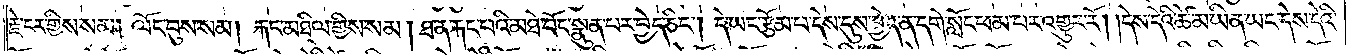རྗེ་ངར་གྱིས་སམ། ལོང་བུས་སམ། རྐང་མཐིལ་གྱིས་སམ། ཐ་ན་རྐང་པའི་མཐེ་བོང་སྣུན་པར་བྱེད་ཅིང༌། དེ་ཡང་རྩོམ་པ་དེས་དུས་བྱེད་ན་དགེ་སློང་ཕམ་པར་འགྱུར་རོ། །དེས་དེའི་ཚེ་མ་ཡིན་ཡང་དེས་དེའི་
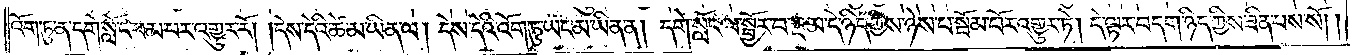འོག་ཏུ་ན་དགེ་སློང་ཕམ་པར་འགྱུར་རོ། །དེས་དེའི་ཚེ་མ་ཡིན་ལ། དེས་དེའི་འོག་ཏུ་ཡང་མ་ཡིན་ན། དགེ་སློང་ལ་སྦྱོར་བ་སྔ་མ་དེ་ཉིད་ཀྱིས་ཉེས་པ་སྦོམ་པོར་འགྱུར་ཏེ། དེ་ལྟར་བདག་ཉིད་ཀྱིས་ཟིན་པས་སོ། །
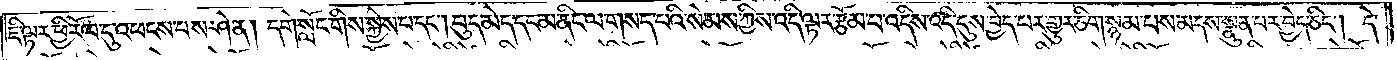ཇི་ལྟར་ཕྱིར་རོལ་དུ་འཕངས་པས་ཤེ་ན། དགེ་སློང་གིས་སྐྱེས་པ་དང༌། བུད་མེད་དང་མ་ནིང་ལ་གསད་པའི་སེམས་ཀྱིས་འདི་ལྟར་རྩོམ་པ་འདིས་འདི་དུས་བྱེད་པར་གྱུར་ཅིག་སྙམ་པས་མདས་སྣུན་པར་བྱེད་ཅིང༌། དེ་
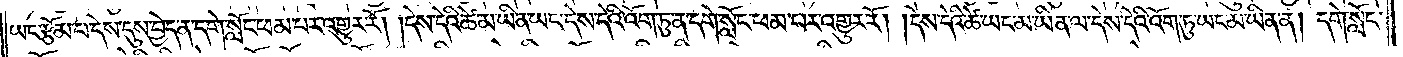ཡང་རྩོམ་པ་དེས་དུས་བྱེད་ན་དགེ་སློང་ཕམ་པར་འགྱུར་རོ། །དེས་དེའི་ཚེ་མ་ཡིན་ཡང་དེས་དེའི་འོག་ཏུ་ན་དགེ་སློང་ཕམ་པར་འགྱུར་རོ། །དེས་དེའི་ཚེ་ཡང་མ་ཡིན་ལ་དེས་དེའི་འོག་ཏུ་ཡང་མ་ཡིན་ན། དགེ་སློང་
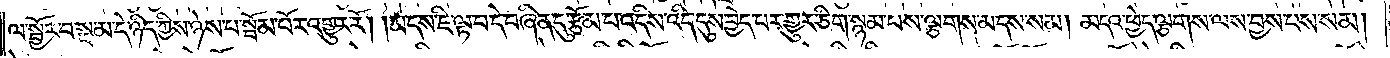ལ་སྦྱོར་བ་སྔ་མ་དེ་ཉིད་ཀྱིས་ཉེས་པ་སྦོམ་པོར་འགྱུར་རོ། །མདས་ཇི་ལྟ་བ་དེ་བཞིན་དུ་རྩོམ་པ་འདིས་འདི་དུས་བྱེད་པར་གྱུར་ཅིག་སྙམ་པས་ལྕགས་མདས་སམ། མདའ་ཕྱེད་ལྕགས་ལས་བྱས་པས་སམ།
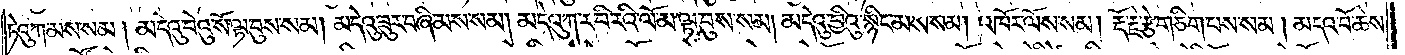ཏེའུ་ཀ་མས་སམ། མདེའུ་བེའུ་སོ་ལྟ་བུས་སམ། མདེའུ་ཟུར་བཞི་མས་སམ། མདེའུ་ཀ་ར་བི་རའི་ལོ་མ་ལྟ་བུས་སམ། མདེའུ་བྱིའུ་སྙིང་མས་སམ། འཁོར་ལོས་སམ། རྡོ་རྗེ་རྩེ་གཅིག་པས་སམ། མདའ་བོ་ཆེས་
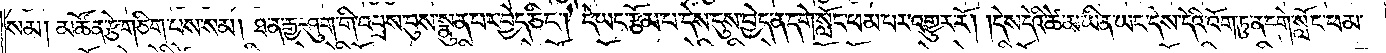སམ། མཚོན་རྩེ་གཅིག་པས་སམ། ཐ་ན་རྒྱ་ཤུག་གི་འབྲས་བུས་སྣུན་པར་བྱེད་ཅིང༌། དེ་ཡང་རྩོམ་པ་དེས་དུས་བྱེད་ན་དགེ་སློང་ཕམ་པར་འགྱུར་རོ། །དེས་དེའི་ཚེ་མ་ཡིན་ཡང་དེས་དེའི་འོག་ཏུ་ན་དགེ་སློང་ཕམ་
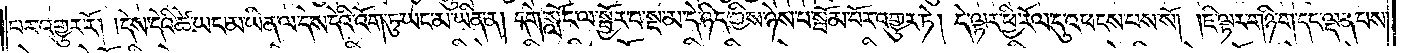པར་འགྱུར་རོ། །དེས་དེའི་ཚེ་ཡང་མ་ཡིན་ལ་དེས་དེའི་འོག་ཏུ་ཡང་མ་ཡིན་ན། དགེ་སློང་ལ་སྦྱོར་བ་སྔ་མ་དེ་ཉིད་ཀྱིས་ཉེས་པ་སྦོམ་བོར་འགྱུར་ཏེ། དེ་ལྟར་ཕྱི་རོལ་དུ་འཕངས་པས་སོ། །ཇི་ལྟར་གཉི་ག་དང་ལྡན་པས་
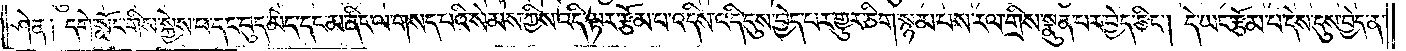ཤེ་ན། དགེ་སློང་གིས་སྐྱེས་པ་དང་བུད་མེད་དང་མ་ནིང་ལ་གསད་པའི་སེམས་ཀྱིས་འདི་ལྟར་རྩོམ་པ་འདིས་འདི་དུས་བྱེད་པར་གྱུར་ཅིག་སྙམ་པས་རལ་གྲིས་སྣུན་པར་བྱེད་ཅིང༌། དེ་ཡང་རྩོམ་པ་དེས་དུས་བྱེད་ན་
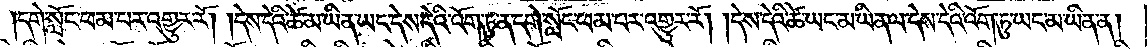།དགེ་སློང་ཕམ་པར་འགྱུར་རོ། །དེས་དེའི་ཚེ་མ་ཡིན་ཡང་དེས་དེའི་འོག་ཏུ་ན་དགེ་སློང་ཕམ་པར་འགྱུར་རོ། །དེས་དེའི་ཚེ་ཡང་མ་ཡིན་ལ་དེས་དེའི་འོག་ཏུ་ཡང་མ་ཡིན་ན།
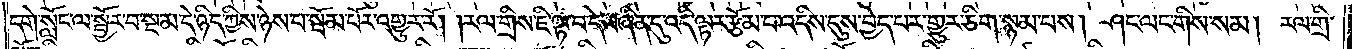དགེ་སློང་ལ་སྦྱོར་བ་སྔ་མ་དེ་ཉིད་ཀྱིས་ཉེས་པ་སྦོམ་པོར་འགྱུར་རོ། །རལ་གྲིས་ཇི་ལྟ་བ་དེ་བཞིན་དུ་འདི་ལྟར་རྩོམ་པ་འདིས་དུས་བྱེད་པར་གྱུར་ཅིག་སྙམ་པས། ཤང་ལང་གིས་སམ། རལ་གྲི་
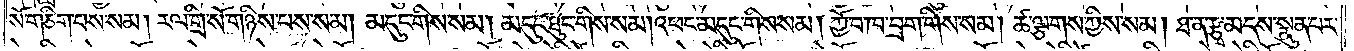སོ་གཅིག་པས་སམ། རལ་གྲི་སོ་གཉིས་པས་སམ། མདུང་གིས་སམ། མདུང་ཐུང་གིས་སམ། འཕང་མདུང་གིས་སམ། ཀྱོ་བ་ཁ་བྲག་གིས་སམ། ཚ་ལྕགས་ཀྱིས་སམ། ཐ་ན་རྩྭ་མདས་སྣུན་པར་
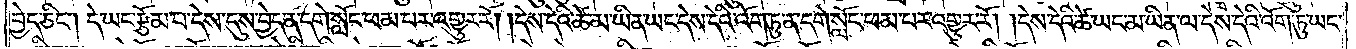བྱེད་ཅིང༌། དེ་ཡང་རྩོམ་པ་དེས་དུས་བྱེད་ན་དགེ་སློང་ཕམ་པར་འགྱུར་རོ། །དེས་དེའི་ཚེ་མ་ཡིན་ཡང་དེས་དེའི་འོག་ཏུ་ན་དགེ་སློང་ཕམ་པར་འགྱུར་རོ། །དེས་དེའི་ཚེ་ཡང་མ་ཡིན་ལ་དེས་དེའི་འོག་ཏུ་ཡང་
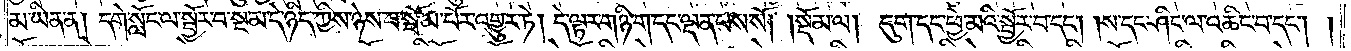མ་ཡིན་ན། དགེ་སློང་ལ་སྦྱོར་བ་སྔ་མ་དེ་ཉིད་ཀྱིས་ཉེས་པ་སྦོམ་པོར་འགྱུར་ཏེ། དེ་ལྟར་གཉི་ག་དང་ལྡན་པས་སོ། །སྡོམ་ལ། དུག་དང་ཕྱེ་མའི་སྦྱོར་བ་དང༌། ས་དང་ཤིང་ལ་འཆིང་བ་དང༌། །
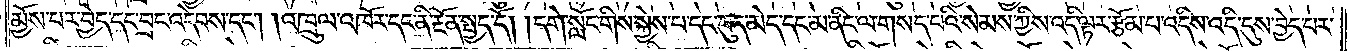མྱོས་པར་བྱེད་དང་བྲང་འདེབས་དང༌། འཁྲུལ་འཁོར་དང་ནི་རྔོན་སྤྱད་དོ། །དགེ་སློང་གིས་སྐྱེས་པ་དང་བུད་མེད་དང་མ་ནིང་ལ་གསད་པའི་སེམས་ཀྱིས་འདི་ལྟར་རྩོམ་པ་འདིས་འདི་དུས་བྱེད་པར་
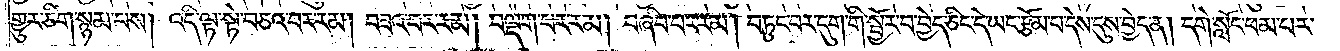གྱུར་ཅིག་སྙམ་པས། འདི་ལྟ་སྟེ་བཅའ་བར་རམ། བཟའ་བར་རམ། བལྡག་པར་རམ། བཞིབ་པར་རམ། བཏུང་བར་དུག་གི་སྦྱོར་བ་བྱེད་ཅིང་དེ་ཡང་རྩོམ་པ་དེས་དུས་བྱེད་ན། དགེ་སློང་ཕམ་པར་
